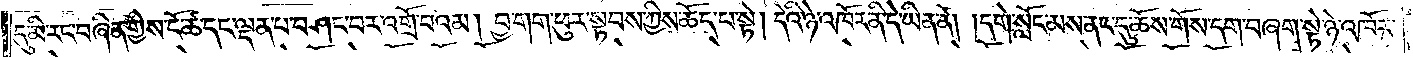དུ་མི་རང་བཞིན་གྱིས་ངོ་ཚ་དང་ལྡན་པ་བཤང་བར་འགྲོ་བའམ། བྱ་གག་ཕུར་སྟབས་ཀྱིས་ཆོད་པ་སྟེ། དེའི་ཉེ་འཁོར་ནི་དེ་ཡིན་ནོ། །དགེ་སློང་མས་ནང་དུ་ཆོས་གོས་དག་བཞག་སྟེ་ཉེ་འཁོར་
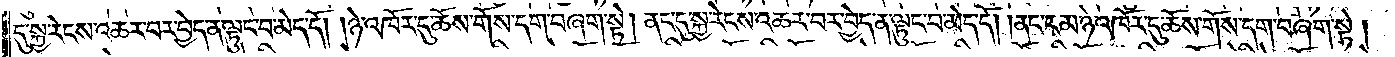དུ་སྐྱ་རེངས་འཆར་བར་བྱེད་ན་ལྟུང་བ་མེད་དོ། །ཉེ་འཁོར་དུ་ཆོས་གོས་དག་བཞག་སྟེ། ནང་དུ་སྐྱ་རེངས་འཆར་བར་བྱེད་ན་ལྟུང་བ་མེད་དོ། །ནང་ངམ་ཉེ་འཁོར་དུ་ཆོས་གོས་དག་བཞག་སྟེ།
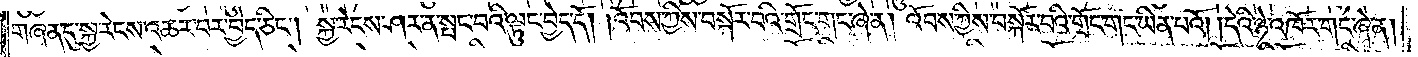གཞན་དུ་སྐྱ་རེངས་འཆར་བར་བྱེད་ཅིང༌། སྐྱ་རེངས་ཤར་ན་སྤང་བའི་ལྟུང་བྱེད་དོ། །འོབས་ཀྱིས་བསྐོར་བའི་གྲོང་གང་ཞེ་ན། འོབས་ཀྱིས་བསྐོར་བའི་གྲོང་གང་ཡིན་པའོ། །དེའི་ཉེ་འཁོར་གང་ཞེ་ན།
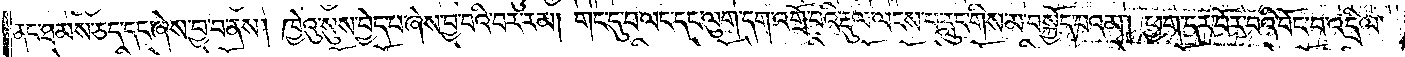ནང་ཐམས་ཅད་དང་ཞེས་བྱ་བ་ནས། ཁྱེའུ་སུས་བྱེད་པ་ཞེས་བྱ་བའི་བར་རམ། གང་དུ་བ་ལང་དང་ལུག་དག་འགྲོ་བའི་རྡུལ་ལངས་པ་རླུང་གིས་མ་བསྐྱོད་པའམ། ཕྱག་དར་བོར་བའི་བོང་བ་འདྲིལ་
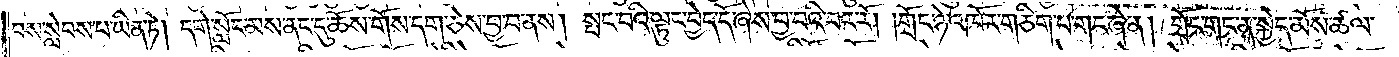བས་སླེབས་པ་ཡིན་ཏེ། དགེ་སློང་མས་ནང་དུ་ཆོས་གོས་དག་ཅེས་བྱ་བ་ནས། སྤང་བའི་ལྟུང་བྱེད་དོ་ཞེས་བྱ་བའི་བར་རོ། །གྲོང་ཉེ་འཁོར་གཅིག་པ་གང་ཞེ་ན། གྲོང་གང་ན་སྐྱེད་མོས་ཚལ་
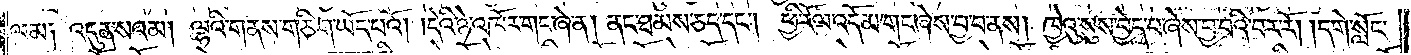ལམ༑ འདུན་སའམ། ལྷའི་གནས་གཅིག་ཡོད་པའོ། །དེའི་ཉེ་འཁོར་གང་ཞེ་ན། ནང་ཐམས་ཅད་དང༌། ཕྱི་རོལ་འདོམ་གང་ཞེས་བྱ་བ་ནས། ཁྱེའུ་སུས་བྱེད་པ་ཞེས་བྱ་བའི་བར་རོ། །དགེ་སློང་མས་ནང་དུ་
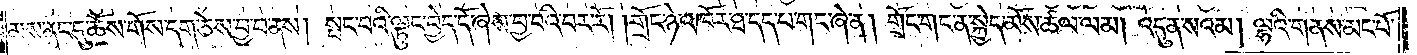མས་ནང་དུ་ཆོས་གོས་དག་ཅེས་བྱ་བ་ནས། སྤང་བའི་ལྟུང་བྱེད་དོ་ཞེས་བྱ་བའི་བར་རོ། །གྲོང་ཉེ་འཁོར་ཐ་དད་པ་གང་ཞེ་ན། གྲོང་གང་ན་སྐྱེད་མོས་ཚལ་ལམ། འདུན་སའམ། ལྷའི་གནས་མང་པོ་
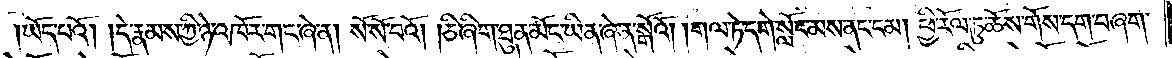ཡོད་པའོ། །དེ་རྣམས་ཀྱི་ཉེ་འཁོར་གང་ཞེ་ན། སོ་སོ་བའོ། །ཅི་ཞིག་ཐུན་མོང་ཡིན་ཞེ་ན་སྒོའོ། །གལ་ཏེ་དགེ་སློང་མས་ནང་ངམ། ཕྱི་རོལ་ཏུ་ཆོས་གོས་དག་བཞག་
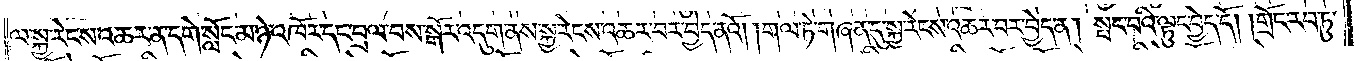ལ་སྐྱ་རེངས་འཆར་ན་དགེ་སློང་མ་ཉེ་འཁོར་དང་བྲལ་བས་སྒོར་འདུག་ནས་སྐྱ་རེངས་འཆར་བར་བྱེད་ནའོ། །གལ་ཏེ་གཞན་དུ་སྐྱ་རེངས་འཆར་བར་བྱེད་ན། སྤང་བའི་ལྟུང་བྱེད་དོ། །གྲོང་རབ་ཏུ་
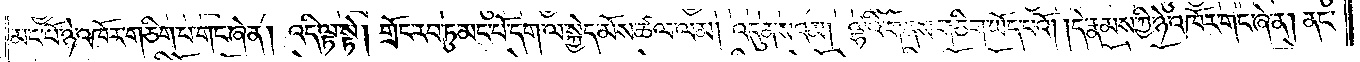མང་པོ་ཉེ་འཁོར་གཅིག་པ་གང་ཞེ་ན། འདི་ལྟ་སྟེ། གྲོང་རབ་ཏུ་མང་པོ་དག་ལ་སྐྱེད་མོས་ཚལ་ལམ། འདུན་སའམ། ལྷའི་གནས་གཅིག་ཡོད་པའོ། །དེ་རྣམས་ཀྱི་ཉེ་འཁོར་གང་ཞེ་ན། ནང་
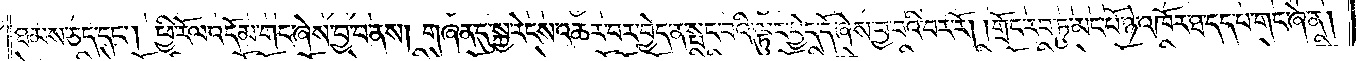ཐམས་ཅད་དང༌། ཕྱི་རོལ་འདོམ་གང་ཞེས་བྱ་བ་ནས། གཞན་དུ་སྐྱ་རེངས་འཆར་བར་བྱེད་ན་སྤང་བའི་ལྟུང་བྱེད་དོ་ཞེས་བྱ་བའི་བར་རོ། །གྲོང་རབ་ཏུ་མང་པོ་ཉེ་འཁོར་ཐ་དད་པ་གང་ཞེ་ན།
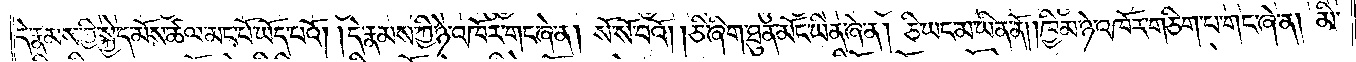དེ་རྣམས་ཀྱི་སྐྱེད་མོས་ཚལ་མང་པོ་ཡོད་པའོ། །དེ་རྣམས་ཀྱི་ཉེ་འཁོར་གང་ཞེ་ན། སོ་སོ་བའོ། །ཅི་ཞིག་ཐུན་མོང་ཡིན་ཞེ་ན། ཅི་ཡང་མ་ཡིན་ནོ། །ཁྱིམ་ཉེ་འཁོར་གཅིག་པ་གང་ཞེ་ན། མི་
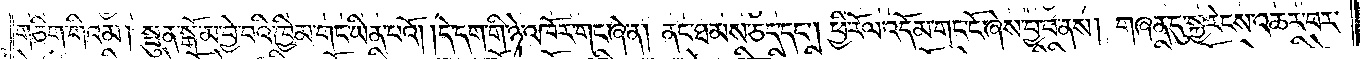གཅིག་གིའམ། སྤུན་སྒོ་མ་བྱེ་བའི་ཁྱིམ་གང་ཡིན་པའོ། །དེ་དག་གི་ཉེ་འཁོར་གང་ཞེ་ན། ནང་ཐམས་ཅད་དང༌། ཕྱི་རོལ་འདོམ་གང་ངོ་ཞེས་བྱ་བ་ནས། གཞན་དུ་སྐྱ་རེངས་འཆར་བར་
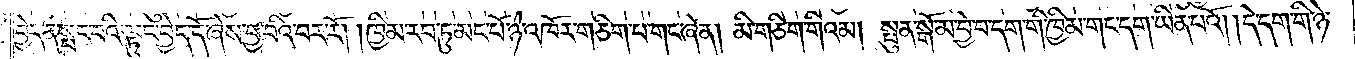བྱེད་ན་སྤང་བའི་ལྟུང་བྱེད་དོ་ཞེས་བྱ་བའི་བར་རོ། །ཁྱིམ་རབ་ཏུ་མང་པོ་ཉེ་འཁོར་གཅིག་པ་གང་ཞེ་ན། མི་གཅིག་གིའམ། སྤུན་སྒོ་མ་བྱེ་བ་དག་གི་ཁྱིམ་གང་དག་ཡིན་པའོ། །དེ་དག་གི་ཉེ་
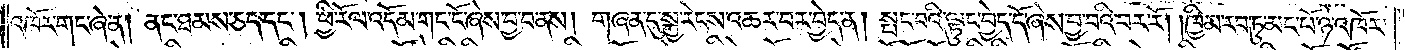འཁོར་གང་ཞེ་ན། ནང་ཐམས་ཅད་དང༌། ཕྱི་རོལ་འདོམ་གང་ངོ་ཞེས་བྱ་བ་ནས། གཞན་དུ་སྐྱ་རེངས་འཆར་བར་བྱེད་ན། སྤང་བའི་ལྟུང་བྱེད་དོ་ཞེས་བྱ་བའི་བར་རོ། །ཁྱིམ་རབ་ཏུ་མང་པོ་ཉེ་འཁོར་
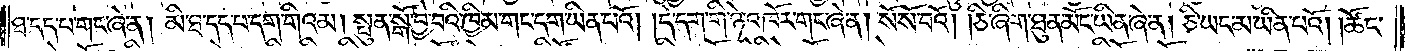ཐ་དད་པ་གང་ཞེ་ན། མི་ཐ་དད་པ་དག་གིའམ། སྤུན་སྒོ་བྱེ་བའི་ཁྱིམ་གང་དག་ཡིན་པའོ། །དེ་དག་གི་ཉེ་འཁོར་གང་ཞེ་ན། སོ་སོ་བའོ། །ཅི་ཞིག་ཐུན་མོང་ཡིན་ཞེ་ན། ཅི་ཡང་མ་ཡིན་པའོ། །ཚོང་
